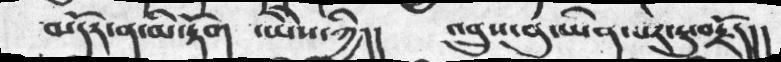མདོར་ན་མི་རྟོག    ་ཡེེས་ཀྱི།།       འབྲུས་བུ་ཡིན་པར་ཏུ་བརྗོད།།
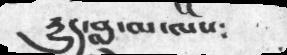དྱུད་བླ་མ་ལས༴
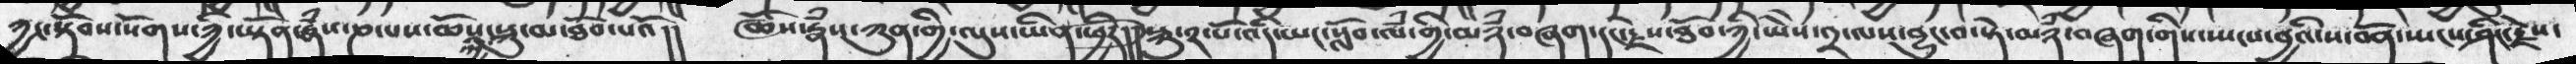ཀྱང་སྟོབས་སོགས་ཀྱི་ཡྟོན་རྣཾས་ཎ་པས་ཆོས་ཀྱི་སྐུ་མ་ཐོབ་པའོ།།   ཆོས་རྣཾས་ཀུན་གྱི་ལུས་ཡིན་ཕྱིར།།  སྐུ་༢་པོ་འདི་ཡང་སློབ་ལཾ་གྱི་མཉཾ་བཞག་དང་རྗེས་ཐོབ་ཀྱི་ཡེེས་༢་ལས་བྱུང་བ་སྟེ་མཉཾ་བཞག་གིས་སྤངས་བྱའི་ས་་བོན་སྤངས་ཤིང་རྗེས་
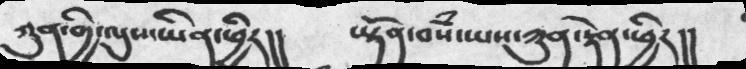ཀུན་གྱི་ལུས་ཡིན་ཕྱིར།།   ཡྟོན་བསཾ་ཡས་ཀུན་རྟེན་ཕྱིར།།
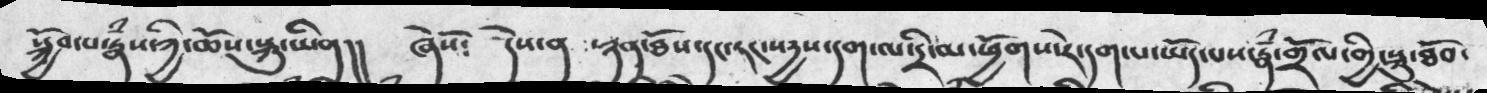སྐྱོབ་པ་རྣཾས་ཀྱི་ཆོས་སྐུ་ཡིན།།   ཞེསོ༴   དེས་ན་ཉན་ཐོས་དང་རང་སདྱས་དག་ལ་དྲི་མ་ཕྱོགས་རེ་དག་པ་ཡོད་པས་རྣཾ་གྲོལ་གྱི་སྐུ་ཐོབ་
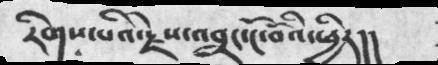རིགས་པའི་རྗེས་འབྲང་ངོ་བོའི་ཕྱིར།།
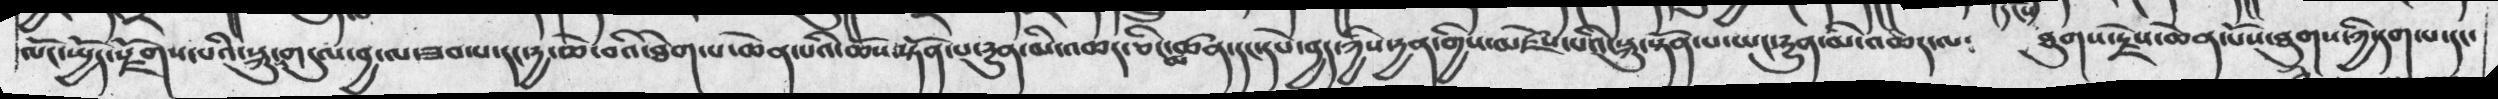ལོང་ཡྱོད་སྫོགས་པའི་སྐུ་གདུལ་བྱ་ལ་ཟབ་པ་དང་རྱ་ཆེ་བའི་ཐེག་པ་ཆེན་པའི་ཆོས་སྟོན་པ་རྱུན་མི་འཆད་ཅིང་མཚན་དང་དཔེ་བྱད་ཀྱིས་རྱན་གྱིས་མཛེས་པའི་སྐུ་སྟོན་པ་ཡང་རྱུན་མི་འཆད་ལ༴   ཐུགས་རྗེས་ཆེན་པོས་ཐུགས་ཀྱི་དག་པ་དདང་
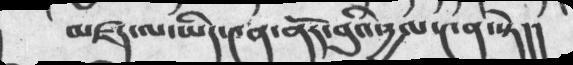མཛད་ལ་ཡིད་༤ན་ནོར་བུའི་དྱལ་༤ན་སྟེ།།
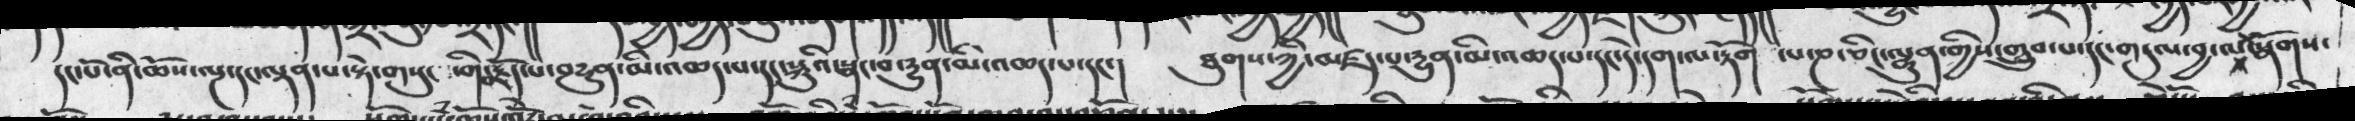དང་པོ་ནི་ཆོས་ལྔ་དང་ལྡན་པ་སྟེ་གསུང ་གི་བརྗོད་པ་རྱུན་མི་འཆད་པ་དང་སྐུའི་སྣང་བ་རྱུན་མི་འཆད་པ་དང་། ཐུགས་ཀྱི་མཛད་པ་རྱུན་མི་འཆད་པ་དངད་དེ་དག་ལ་རྟོག་པ་ཎ་ཅིང་ལྷུན་གྱིས་གྲུབ་པ་དང་གདུལ་བྱ་ལ་སྣོགས་
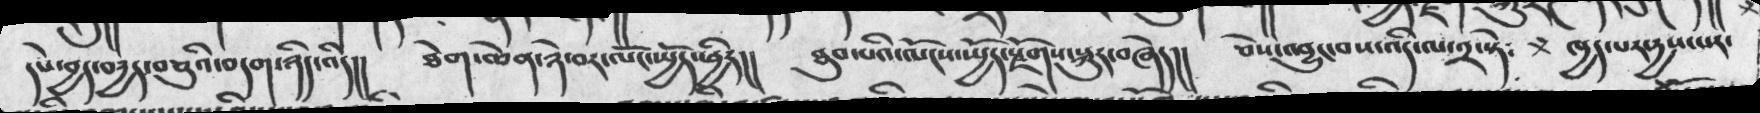དཔེ་བྱད་བརྱད་བཅུའི་བདག་ཉིད་འདི།།    ཐེག་ཆེན་ཉེ་བར་ལོང་ཡྱོད་ཕྱིར།།     ཐུབ་པའི་ལོངས་ཡྱོད་སྫོགས་སྐུར་བཞེད།།   ཅེས་འབྱུང་བས་འདི་ལ་༢་སྟེ༴   ཁྱད་པར་རྱས་པར་
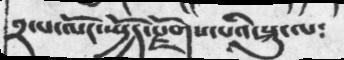༢་པ་ལོང་སྤྱོད་སྫོགས་པའི་སྐུ་ལ༴
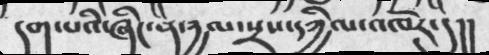དག་པའི་ཞིང་ན་དྱལ་སྲས་དཀྱིལ་འཁོར་དུ།།
